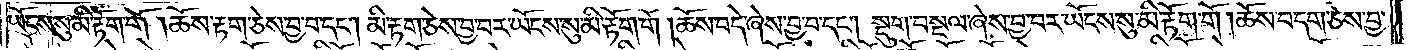ཡོངས་སུ་མི་རྟོག་གོ །ཆོས་རྟག་ཅེས་བྱ་བ་དང༌། མི་རྟག་ཅེས་བྱ་བར་ཡོངས་སུ་མི་རྟོག་གོ །ཆོས་བདེ་ཞེས་བྱ་བ་དང༌། སྡུག་བསྔལ་ཞེས་བྱ་བར་ཡོངས་སུ་མི་རྟོག་གོ །ཆོས་བདག་ཅེས་བྱ་
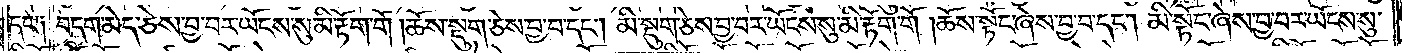བ་དང༌། བདག་མེད་ཅེས་བྱ་བར་ཡོངས་སུ་མི་རྟོག་གོ །ཆོས་སྡུག་ཅེས་བྱ་བ་དང༌། མི་སྡུག་ཅེས་བྱ་བར་ཡོངས་སུ་མི་རྟོག་གོ །ཆོས་སྟོང་ཞེས་བྱ་བ་དང༌། མི་སྟོང་ཞེས་བྱ་བར་ཡོངས་སུ་
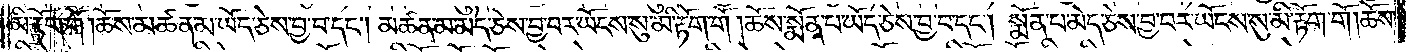མི་རྟོག་གོ །ཆོས་མཚན་མ་ཡོད་ཅེས་བྱ་བ་དང༌། མཚན་མ་མེད་ཅེས་བྱ་བར་ཡོངས་སུ་མི་རྟོག་གོ །ཆོས་སྨོན་པ་ཡོད་ཅེས་བྱ་བ་དང༌། སྨོན་པ་མེད་ཅེས་བྱ་བར་ཡོངས་སུ་མི་རྟོག་གོ །ཆོས་
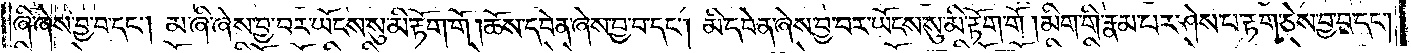ཞི་ཞེས་བྱ་བ་དང༌། མ་ཞི་ཞེས་བྱ་བར་ཡོངས་སུ་མི་རྟོག་གོ །ཆོས་དབེན་ཞེས་བྱ་བ་དང༌། མི་དབེན་ཞེས་བྱ་བར་ཡོངས་སུ་མི་རྟོག་གོ །མིག་གི་རྣམ་པར་ཤེས་པ་རྟག་ཅེས་བྱ་བ་དང༌།
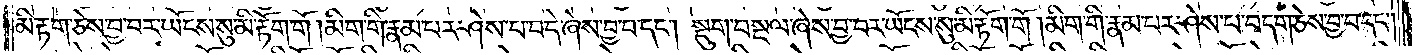མི་རྟག་ཅེས་བྱ་བར་ཡོངས་སུ་མི་རྟོག་གོ །མིག་གི་རྣམ་པར་ཤེས་པ་བདེ་ཞེས་བྱ་བ་དང༌། སྡུག་བསྔལ་ཞེས་བྱ་བར་ཡོངས་སུ་མི་རྟོག་གོ །མིག་གི་རྣམ་པར་ཤེས་པ་བདག་ཅེས་བྱ་བ་དང༌།
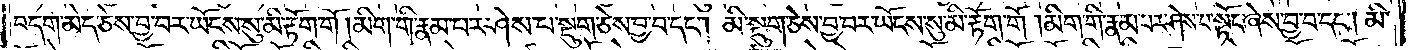བདག་མེད་ཅེས་བྱ་བར་ཡོངས་སུ་མི་རྟོག་གོ །མིག་གི་རྣམ་པར་ཤེས་པ་སྡུག་ཅེས་བྱ་བ་དང༌། མི་སྡུག་ཅེས་བྱ་བར་ཡོངས་སུ་མི་རྟོག་གོ །མིག་གི་རྣམ་པར་ཤེས་པ་སྟོང་ཞེས་བྱ་བ་དང༌། མི་
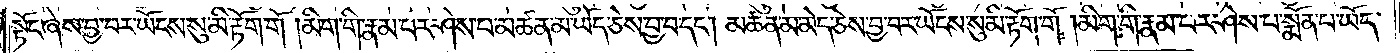སྟོང་ཞེས་བྱ་བར་ཡོངས་སུ་མི་རྟོག་གོ །མིག་གི་རྣམ་པར་ཤེས་པ་མཚན་མ་ཡོད་ཅེས་བྱ་བ་དང༌། མཚན་མ་མེད་ཅེས་བྱ་བར་ཡོངས་སུ་མི་རྟོག་གོ །མིག་གི་རྣམ་པར་ཤེས་པ་སྨོན་པ་ཡོད་
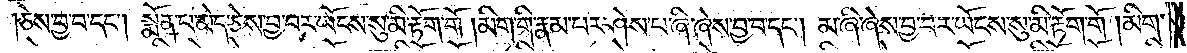ཅེས་བྱ་བ་དང༌། སྨོན་པ་མེད་ཅེས་བྱ་བར་ཡོངས་སུ་མི་རྟོག་གོ །མིག་གི་རྣམ་པར་ཤེས་པ་ཞི་ཞེས་བྱ་བ་དང༌། མ་ཞི་ཞེས་བྱ་བར་ཡོངས་སུ་མི་རྟོག་གོ །མིག་
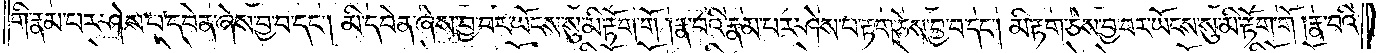གི་རྣམ་པར་ཤེས་པ་དབེན་ཞེས་བྱ་བ་དང༌། མི་དབེན་ཞེས་བྱ་བར་ཡོངས་སུ་མི་རྟོག་གོ །རྣ་བའི་རྣམ་པར་ཤེས་པ་རྟག་ཅེས་བྱ་བ་དང༌། མི་རྟག་ཅེས་བྱ་བར་ཡོངས་སུ་མི་རྟོག་གོ །རྣ་བའི་
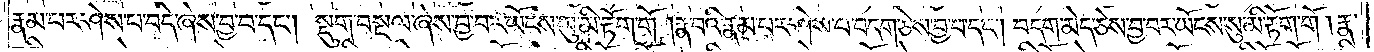རྣམ་པར་ཤེས་པ་བདེ་ཞེས་བྱ་བ་དང༌། སྡུག་བསྔལ་ཞེས་བྱ་བར་ཡོངས་སུ་མི་རྟོག་གོ །རྣ་བའི་རྣམ་པར་ཤེས་པ་བདག་ཅེས་བྱ་བ་དང༌། བདག་མེད་ཅེས་བྱ་བར་ཡོངས་སུ་མི་རྟོག་གོ །རྣ་
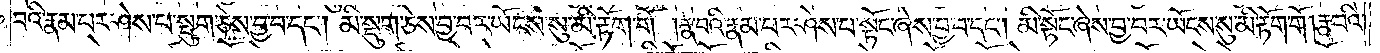བའི་རྣམ་པར་ཤེས་པ་སྡུག་ཅེས་བྱ་བ་དང༌། མི་སྡུག་ཅེས་བྱ་བར་ཡོངས་སུ་མི་རྟོག་གོ །རྣ་བའི་རྣམ་པར་ཤེས་པ་སྟོང་ཞེས་བྱ་བ་དང༌། མི་སྟོང་ཞེས་བྱ་བར་ཡོངས་སུ་མི་རྟོག་གོ །རྣ་བའི་
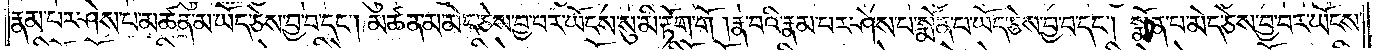རྣམ་པར་ཤེས་པ་མཚན་མ་ཡོད་ཅེས་བྱ་བ་དང༌། མཚན་མ་མེད་ཅེས་བྱ་བར་ཡོངས་སུ་མི་རྟོག་གོ །རྣ་བའི་རྣམ་པར་ཤེས་པ་སྨོན་པ་ཡོད་ཅེས་བྱ་བ་དང༌། སྨོན་པ་མེད་ཅེས་བྱ་བར་ཡོངས་
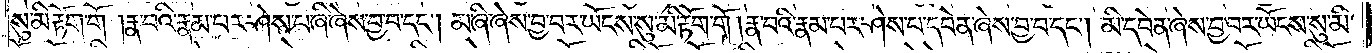སུ་མི་རྟོག་གོ །རྣ་བའི་རྣམ་པར་ཤེས་པ་ཞི་ཞེས་བྱ་བ་དང༌། མ་ཞི་ཞེས་བྱ་བར་ཡོངས་སུ་མི་རྟོག་གོ །རྣ་བའི་རྣམ་པར་ཤེས་པ་དབེན་ཞེས་བྱ་བ་དང༌། མི་དབེན་ཞེས་བྱ་བར་ཡོངས་སུ་མི་
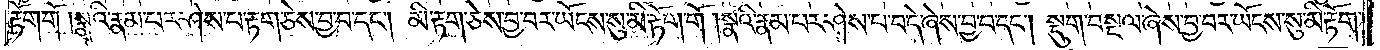རྟོག་གོ །སྣའི་རྣམ་པར་ཤེས་པ་རྟག་ཅེས་བྱ་བ་དང༌། མི་རྟག་ཅེས་བྱ་བར་ཡོངས་སུ་མི་རྟོག་གོ །རྣའི་རྣམ་པར་ཤེས་པ་བདེ་ཞེས་བྱ་བ་དང༌། སྡུག་བསྔལ་ཞེས་བྱ་བར་ཡོངས་སུ་མི་རྟོག་
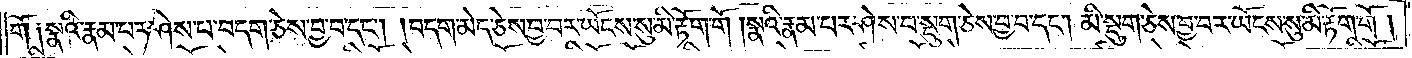གོ ༑སྣའི་རྣམ་པར་ཤེས་པ་བདག་ཅེས་བྱ་བ་དང༌། བདག་མེད་ཅེས་བྱ་བར་ཡོངས་སུ་མི་རྟོག་གོ །སྣའི་རྣམ་པར་ཤེས་པ་སྡུག་ཅེས་བྱ་བ་དང༌། མི་སྡུག་ཅེས་བྱ་བར་ཡོངས་སུ་མི་རྟོག་གོ །
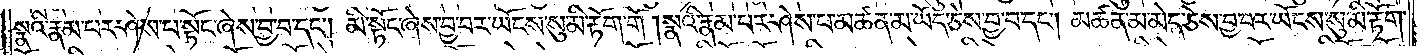སྣའི་རྣམ་པར་ཤེས་པ་སྟོང་ཞེས་བྱ་བ་དང༌། མི་སྟོང་ཞེས་བྱ་བར་ཡོངས་སུ་མི་རྟོག་གོ །སྣའི་རྣམ་པར་ཤེས་པ་མཚན་མ་ཡོད་ཅེས་བྱ་བ་དང༌། མཚན་མ་མེད་ཅེས་བྱ་བར་ཡོངས་སུ་མི་རྟོག་
